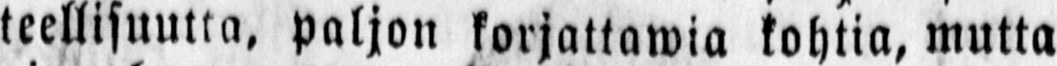teellisuutta, paljon korjattawia kohtia, mutta
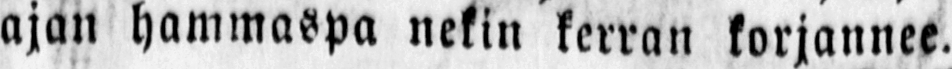ajan hammaspa nekin kerran korjannee.
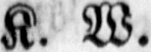K. W.
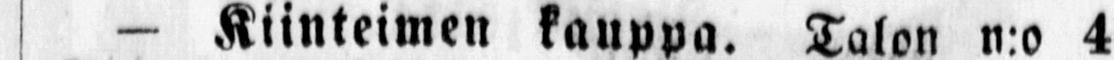— Kiinteimen kauppa. Talon n:o 4
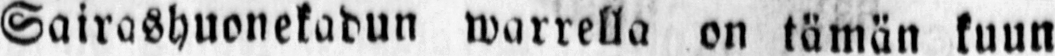Sairashuonekadun warrella on tämän kuun
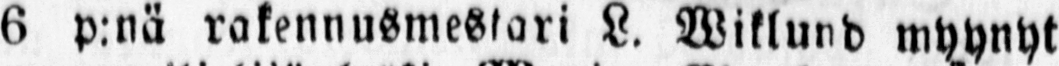6 p:nä rakennusmestari L. Wiklund myynyt
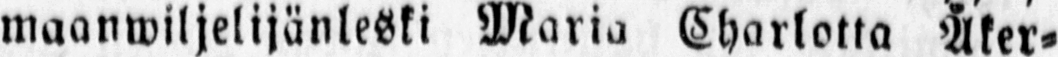maanwiljelijänleski Maria Charlotta Åker-
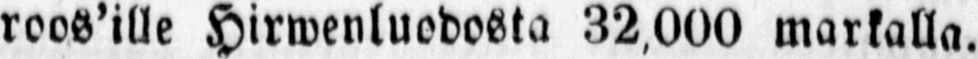roos'ille Hirwenluodosta 32,000 markalla.
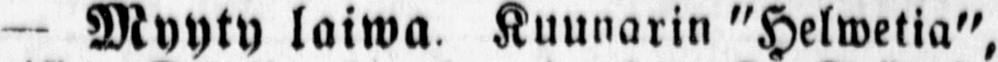— Myyty laiwa Kuunarin "Helwetia",
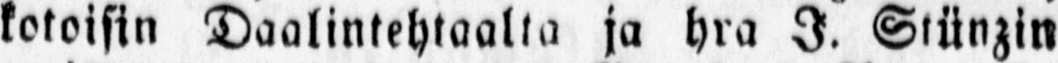kotoisin Daalintehtaalta ja hra I. Stünzin
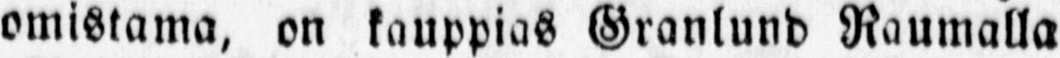omistama, on kauppias Granlund Raumalla
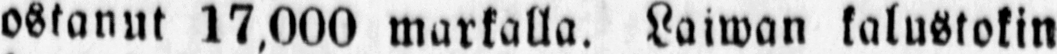ostanut 17.000 markalla, Laiwan kalustokin
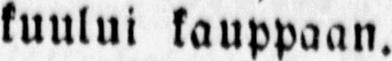kuului kauppaan.
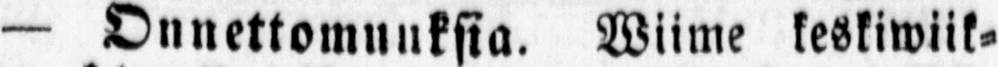— Onnettomuuksia. Wiime keskiwiik-
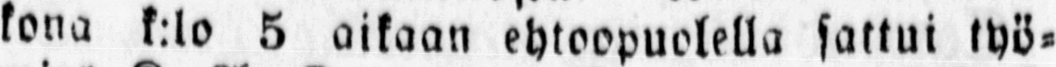kona k.lo 5 aikaan ehtoopuolella sattui työ-
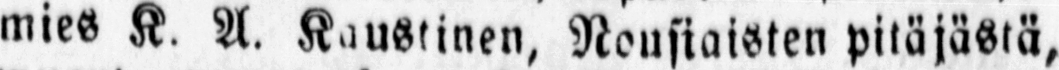mies K. A. Kaustinen, Nousiaisten pitäjästä,
